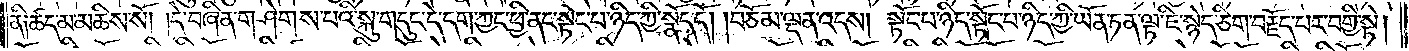ནི༑ཚད་མ་མཆིས་སོ། །དེ་བཞིན་གཤེགས་པའི་སྐུ་གདུང་དེ་དག་ཀྱང་ཕྱི་ནང་སྟོང་པ་ཉིད་ཀྱི་སྣོད་དོ། །བཅོམ་ལྡན་འདས། སྟོང་པ་ཉིད་སྟོང་པ་ཉིད་ཀྱི་ཡོན་ཏན་ལྟ་ཇི་སྙེད་ཅིག་བརྗོད་པར་བགྱི་སྟེ།
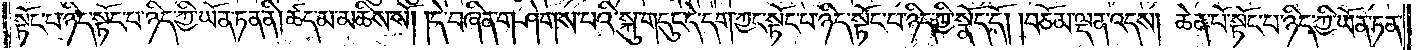སྟོང་པ་ཉིད་སྟོང་པ་ཉིད་ཀྱི་ཡོན་ཏན་ནི། ཚད་མ་མཆིས་སོ། །དེ་བཞིན་གཤེགས་པའི་སྐུ་གདུང་དེ་དག་ཀྱང་སྟོང་པ་ཉིད་སྟོང་པ་ཉིད་ཀྱི་སྣོད་དོ། །བཅོམ་ལྡན་འདས། ཆེན་པོ་སྟོང་པ་ཉིད་ཀྱི་ཡོན་ཏན་
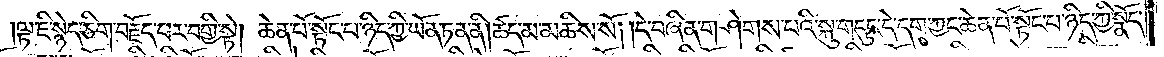ལྟ་ཇི་སྙེད་ཅིག་བརྗོད་པར་བགྱི་སྟེ། ཆེན་པོ་སྟོང་པ་ཉིད་ཀྱི་ཡོན་ཏན་ནི། ཚད་མ་མཆིས་སོ། །དེ་བཞིན་གཤེགས་པའི་སྐུ་གདུང་དེ་དག་ཀྱང་ཆེན་པ་སྟོང་པ་ཉིད་ཀྱི་སྣོད་
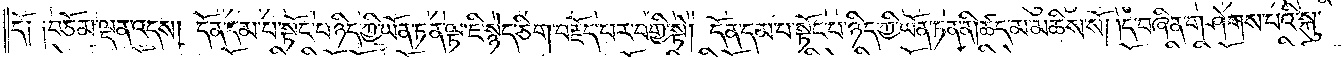དོ༑ ༑བཅོམ་ལྡན་འདས། དོན་དམ་པ་སྟོང་པ་ཉིད་ཀྱི་ཡོན་ཏན་ལྟ་ཇི་སྙེད་ཅིག་བརྗོད་པར་བགྱི་སྟེ། དོན་དམ་པ་སྟོང་པ་ཉིད་ཀྱི་ཡོན་ཏན་ནི་ཚད་མ་མཆིས་སོ། །དེ་བཞིན་གཤེགས་པའི་སྐུ་
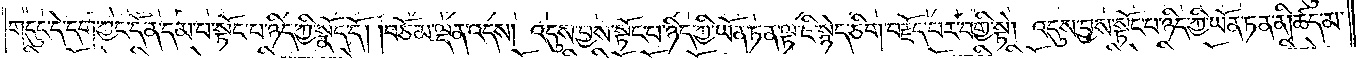གདུང་དེ་དག་ཀྱང་དོན་དམ་པ་སྟོང་པ་ཉིད་ཀྱི་སྣོད་དོ། །བཅོམ་ལྡན་འདས། འདུས་བྱས་སྟོང་པ་ཉིད་ཀྱི་ཡོན་ཏན་ལྟ་ཇི་སྙེད་ཅིག་བརྗོད་པར་བགྱི་སྟེ། འདུས་བྱས་སྟོང་པ་ཉིད་ཀྱི་ཡོན་ཏན་ནི།ཚད་མ་
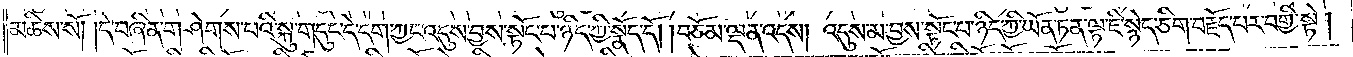མཆིས་སོ། །དེ་བཞིན་གཤེགས་པའི་སྐུ་གདུང་དེ་དག་ཀྱང་འདུས་བྱས་སྟོང་པ་ཉིད་ཀྱི་སྣོད་དོ། །བཅོམ་ལྡན་འདས། འདུས་མ་བྱས་སྟོང་པ་ཉིད་ཀྱི་ཡོན་ཏན་ལྟ་ཇི་སྙེད་ཅིག་བརྗོད་པར་བགྱི་སྟེ།
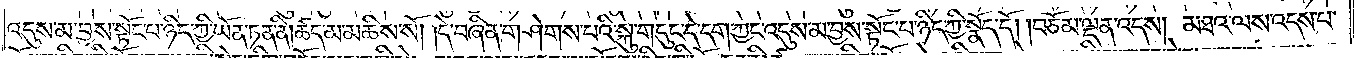འདུས་མ་བྱས་སྟོང་པ་ཉིད་ཀྱི་ཡོན་ཏན་ནི། ཚད་མ་མཆིས་སོ། །དེ་བཞིན་གཤེགས་པའི་སྐུ་གདུང་དེ་དག་ཀྱང་འདུས་མ་བྱས་སྟོང་པ་ཉིད་ཀྱི་སྣོད་དོ། །བཅོམ་ལྡན་འདས། མཐའ་ལས་འདས་པ་
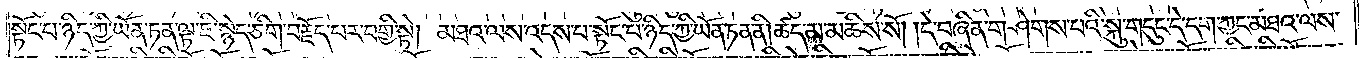སྟོང་པ་ཉིད་ཀྱི་ཡོན་ཏན་ལྟ་ཇི་སྙེད་ཅིག་བརྗོད་པར་བགྱི་སྟེ། མཐའ་ལས་འདས་པ་སྟོང་པ་ཉིད་ཀྱི་ཡོན་ཏན་ནི། ཚད་མ་མཆིས་སོ། །དེ་བཞིན་གཤེགས་པའི་སྐུ་གདུང་དེ་དག་ཀྱང་མཐའ་ལས་
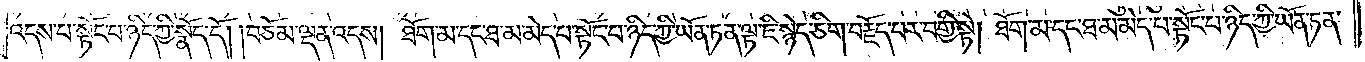འདས་པ་སྟོང་པ་ཉིད་ཀྱི་སྣོད་དོ། །བཅོམ་ལྡན་འདས། ཐོག་མ་དང་ཐ་མ་མེད་པ་སྟོང་པ་ཉིད་ཀྱི་ཡོན་ཏན་ལྟ་ཇི་སྙེད་ཅིག་བརྗོད་པར་བགྱི་སྟེ། ཐོག་མ་དང་ཐ་མ་མེད་པ་སྟོང་པ་ཉིད་ཀྱི་ཡོན་ཏན་
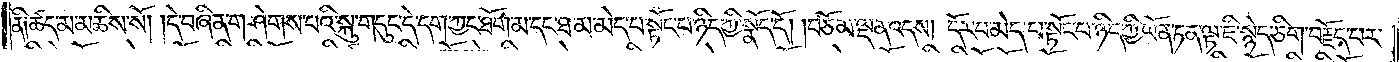ནི༑ཚད་མ་མཆིས་སོ། །དེ་བཞིན་གཤེགས་པའི་སྐུ་གདུང་དེ་དག་ཀྱང་ཐོག་མ་དང་ཐ་མ་མེད་པ་སྟོང་པ་ཉིད་ཀྱི་སྣོད་དོ། །བཅོམ་ལྡན་འདས། དོར་བ་མེད་པ་སྟོང་པ་ཉིད་ཀྱི་ཡོན་ཏན་ལྟ་ཇི་སྙེད་ཅིག་བརྗོད་པར་
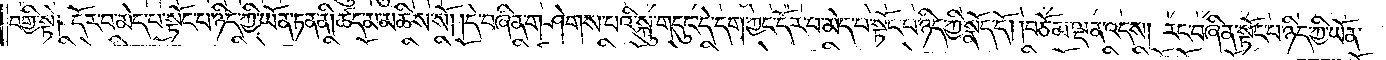བགྱི་སྟེ། དོར་བ་མེད་པ་སྟོང་པ་ཉིད་ཀྱི་ཡོན་ཏན་ནི། ཚད་མ་མཆིས་སོ། །དེ་བཞིན་གཤེགས་པའི་སྐུ་གདུང་དེ་དག་ཀྱང་དོར་བ་མེད་པ་སྟོང་པ་ཉིད་ཀྱི་སྣོད་དོ། །བཅོམ་ལྡན་འདས། རང་བཞིན་སྟོང་པ་ཉིད་ཀྱི་ཡོན་
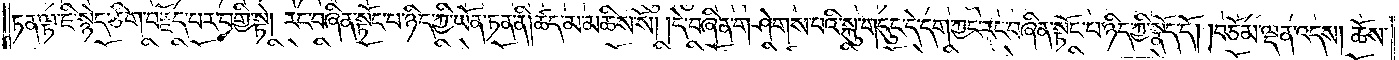ཏན་ལྟ་ཇི་སྙེད་ཅིག་བརྗོད་པར་བགྱི་སྟེ། རང་བཞིན་སྟོང་པ་ཉིད་ཀྱི་ཡོན་ཏན་ནི། ཚད་མ་མཆིས་སོ། །དེ་བཞིན་གཤེགས་པའི་སྐུ་གདུང་དེ་དག་ཀྱང་རང་བཞིན་སྟོང་པ་ཉིད་ཀྱི་སྣོད་དོ། །བཅོམ་ལྡན་འདས། ཆོས་
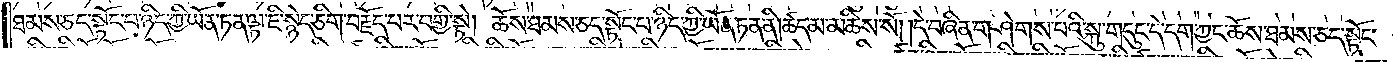ཐམས་ཅད་སྟོང་པ་ཉིད་ཀྱི་ཡོན་ཏན་ལྟ་ཇི་སྙེད་ཅིག་བརྗོད་པར་བགྱི་སྟེ། ཆོས་ཐམས་ཅད་སྟོང་པ་ཉིད་ཀྱི་ཡོན་ཏན་ནི། ཚད་མ་མཆིས་སོ། །དེ་བཞིན་གཤེགས་པའི་སྐུ་གདུང་དེ་དག་ཀྱང་ཆོས་ཐམས་ཅད་སྟོང་
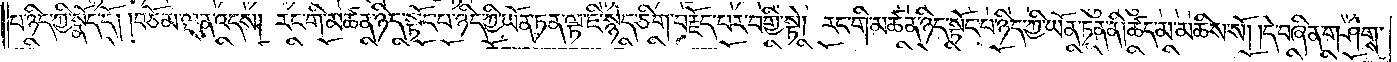པ་ཉིད་ཀྱི་སྣོད་དོ། །བཅོམ་ལྡན་འདས། རང་གི་མཚན་ཉིད་སྟོང་པ་ཉིད་ཀྱི་ཡོན་ཏན་ལྟ་ཇི་སྙེད་ཅིག་བརྗོད་པར་བགྱི་སྟེ། རང་གི་མཚན་ཉིད་སྟོང་པ་ཉིད་ཀྱི་ཡོན་ཏན་ནི། ཚད་མ་མཆིས་སོ། །དེ་བཞིན་གཤེགས་
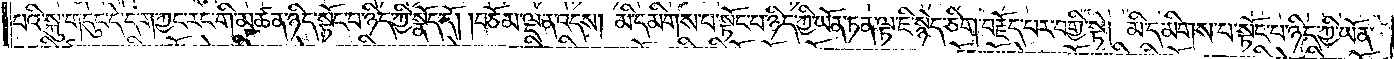པའི་སྐུ་གདུང་དེ་དག་ཀྱང་རང་གི་མཚན་ཉིད་སྟོང་པ་ཉིད་ཀྱི་སྣོད་དོ། །བཅོམ་ལྡན་འདས། མི་དམིགས་པ་སྟོང་པ་ཉིད་ཀྱི་ཡོན་ཏན་ལྟ་ཇི་སྙེད་ཅིག་བརྗོད་པར་བགྱི་སྟེ། མི་དམིགས་པ་སྟོང་པ་ཉིད་ཀྱི་ཡོན་
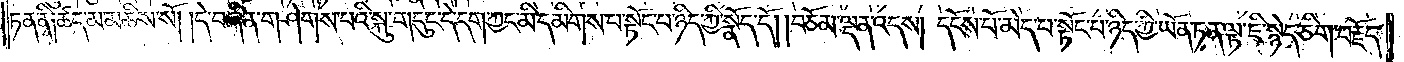ཏན་ནི། ཚད་མ་མཆིས་སོ། །དེ་བཞིན་གཤེགས་པའི་སྐུ་གདུང་དེ་དག་ཀྱང་མི་དམིགས་པ་སྟོང་པ་ཉིད་ཀྱི་སྣོད་དོ། །བཅོམ་ལྡན་འདས། དངོས་པོ་མེད་པ་སྟོང་པ་ཉིད་ཀྱི་ཡོན་ཏན་ལྟ་ཇི་སྙེད་ཅིག་བརྗོད་
